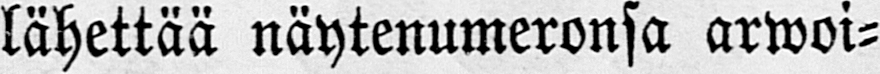lähettää näytenumeronsa arwoi-
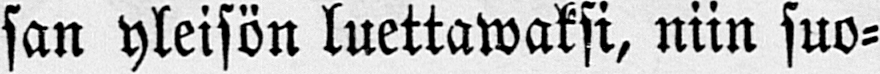san yleisön luettawaksi, niin suo-
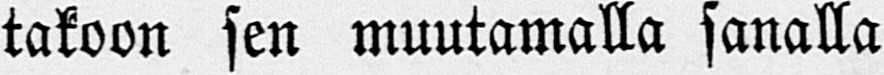takoon sen muutamalla sanalla
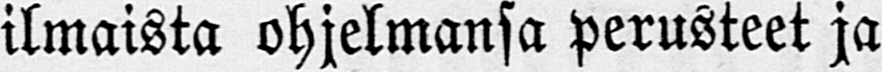ilmaista ohjelmansa perusteet ja
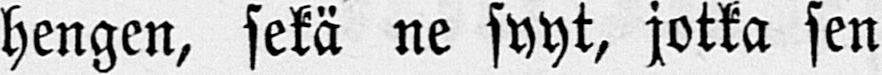hengen, sekä ne syyt, jotka sen
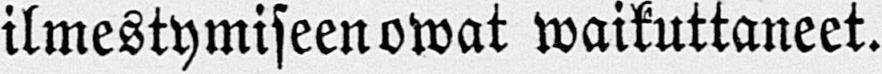ilmestymiseen owat waikuttaneet.
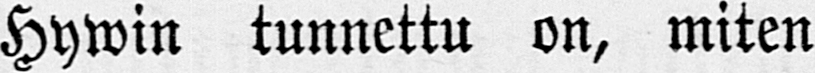Hywin tunnettu on, miten
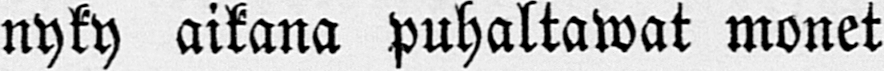nyky aikana puhaltawat monet
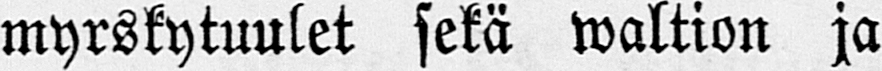myrskytuulet sekä waltion ja
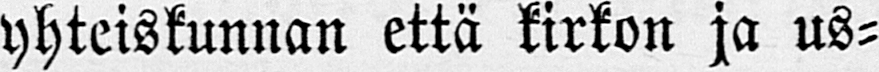yhteiskunnan että kirkon ja us-
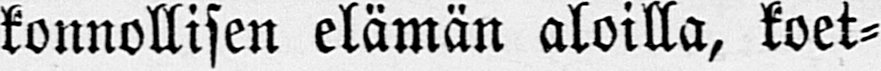konnollisen elämän aloilla, koet-
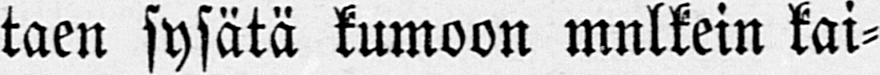taen sysätä kumoon mnlkein kai-
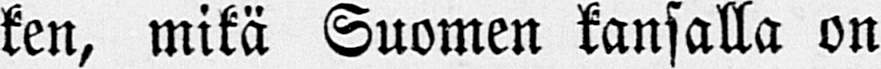ken, mikä Suomen kansalla on
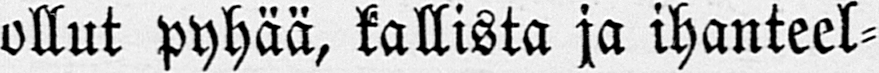ollut pyhää, kallista ja ihanteel-
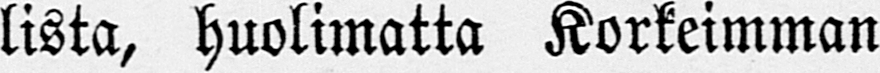lista, huolimatta Korkeimman
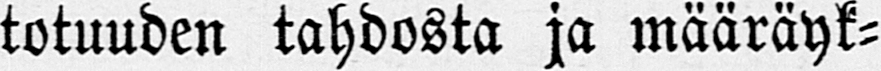totuuden tahdosta ja määräyk-
